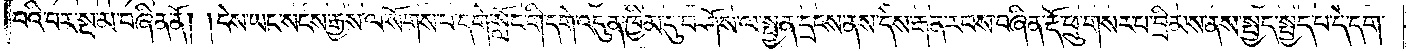བའི་བར་སྔ་མ་བཞིན་ནོ། །དེས་ཡང་སངས་རྒྱས་ལ་སོགས་པ་དགེ་སློང་གི་དགེ་འདུན་ཁྱིམ་དུ་བཤོས་ལ་སྤྱན་དྲངས་ནས་དེས་རྒན་རབས་བཞིན་རྡོ་ཕྲུ་གསར་པ་བྲིམས་ནས་སྤྱད་སྤྱད་པ་དེ་དག་
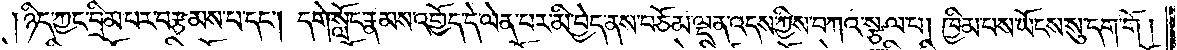ཉིད་ཀྱང་བྲིམ་པར་བརྩམས་པ་དང༌། དགེ་སློང་རྣམས་འགྱོད་དེ་ལན་པར་མི་བྱེད་ནས་བཅོམ་ལྡན་འདས་ཀྱིས་བཀའ་སྩལ་པ། ཁྱིམ་པས་ཡོངས་སུ་དག་གོ །
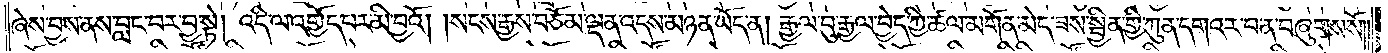ཞེས་བྱས་ནས་བླང་བར་བྱ་སྟེ། འདི་ལ་འགྱོད་པར་མི་བྱའོ། །སངས་རྒྱས་བཅོམ་ལྡན་འདས་མཉན་ཡོད་ན། རྒྱལ་བུ་རྒྱལ་བྱེད་ཀྱི་ཚལ་མགོན་མེད་ཟས་སྦྱིན་གྱི་ཀུན་དགའ་ར་བ་ན་བཞུགས་སོ༎
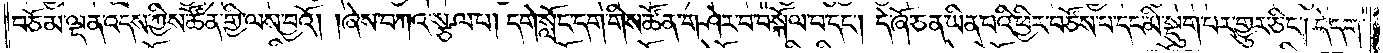བཅོམ་ལྡན་འདས་ཀྱིས་ཚོན་གྱི་ལས་བྱའོ། །ཞེས་བཀའ་སྩལ་པ། དགེ་སློང་དག་གིས་ཚོན་གཤེར་བ་བསྐོལ་བ་དང༌། དེ་ཞོ་ཅན་ཡིན་པའི་ཕྱིར་བཙོས་པ་དང་མི་སྡུག་པར་གྱུར་ཅིང༌། དེ་དག་
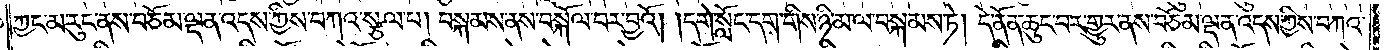ཀྱང་མ་རུང་ནས་བཅོམ་ལྡན་འདས་ཀྱིས་བཀའ་སྩལ་པ། བསྐམས་ནས་བསྐོལ་བར་བྱའོ། །དགེ་སློང་དག་གིས་ཉི་མ་ལ་བསྐམས་ཏེ། དེ་ནོན་ཆུང་བར་གྱུར་ནས་བཅོམ་ལྡན་འདས་ཀྱིས་བཀའ་
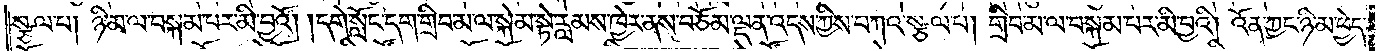སྩལ་པ། ཉི་མ་ལ་བསྐམ་པར་མི་བྱའོ། །དགེ་སློང་དག་གྲིབ་མ་ལ་སྐེམ་སྟེ་རླམས་ཁྱེར་ནས་བཅོམ་ལྡན་འདས་ཀྱིས་བཀའ་སྩལ་པ། གྲིབ་མ་ལ་བསྐམ་པར་མི་བྱའི། འོན་ཀྱང་ཉི་མ་ཕྱེད་
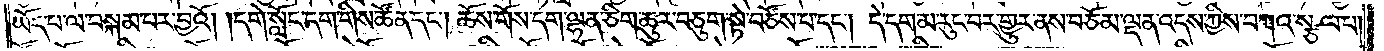ཡོད་པ་ལ་བསྐམ་པར་བྱའོ། །དགེ་སློང་དག་གིས་ཚོན་དང༌། ཆོས་གོས་དག་ལྷན་ཅིག་ཆུར་བཅུག་སྟེ་བཙོས་པ་དང༌། དེ་དག་མ་རུང་བར་གྱུར་ནས་བཅོམ་ལྡན་འདས་ཀྱིས་བཀའ་སྩལ་པ།
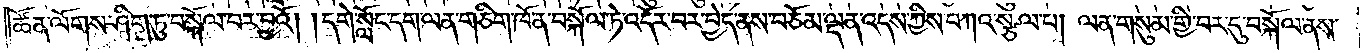ཚོན་ལོགས་ཤིག་ཏུ་བསྐོལ་བར་བྱའོ། །དགེ་སློང་དག་ལན་གཅིག་ཁོ་ན་བསྐོལ་ཏེ་འདོར་བར་བྱེད་ནས་བཅོམ་ལྡན་འདས་ཀྱིས་བཀའ་སྩལ་པ། ལན་གསུམ་གྱི་བར་དུ་བསྐོལ་ནས་
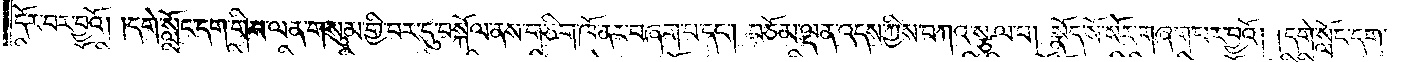དོར་བར་བྱའོ། །དགེ་སློང་དག་གིས་ལན་གསུམ་གྱི་བར་དུ་བསྐོལ་ནས་གཅིག་ཁོ་ནར་བཞག་པ་དང༌། བཅོམ་ལྡན་འདས་ཀྱིས་བཀའ་སྩལ་པ། སྣོད་སོ་སོར་གཞག་པར་བྱའོ། །དགེ་སློང་དག་
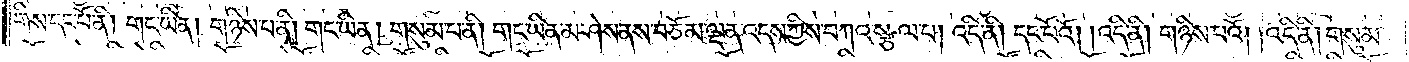གིས་དང་པོ་ནི། གང་ཡིན། གཉིས་པ་ནི། གང་ཡིན། གསུམ་པ་ནི། གང་ཡིན་པ་མ་ཤེས་ནས་བཅོམ་ལྡན་འདས་ཀྱིས་བཀའ་སྩལ་པ། འདི་ནི། དང་པོའོ། འདི་ནི། གཉིས་པའོ། །འདི་ནི། གསུམ་
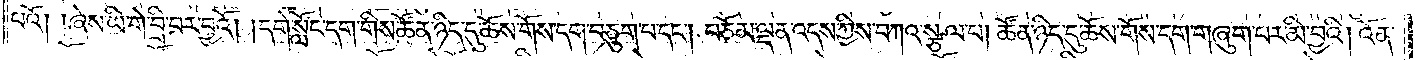པའོ། །ཞེས་ཡི་གེ་བྲི་བར་བྱའོ། །དགེ་སློང་དག་གིས་ཚོན་ཉིད་དུ་ཆོས་གོས་དག་བཅུག་པ་དང༌། བཅོམ་ལྡན་འདས་ཀྱིས་བཀའ་སྩལ་པ། ཚོན་ཉིད་དུ་ཆོས་གོས་དག་གཞུག་པར་མི་བྱའི། འོན་
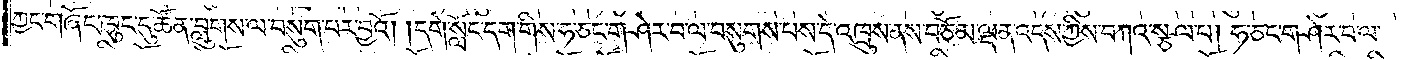ཀྱང་གཞོང་ཁུང་དུ་ཚོན་བླུགས་ལ་བསུག་པར་བྱའོ། །དགེ་སློང་དག་གིས་ཧ་ཅང་གཤེར་བ་ལ་བསུགས་པས་དེ་འཁྲུས་ནས་བཅོམ་ལྡན་འདས་ཀྱིས་བཀའ་སྩལ་པ། ཧ་ཅང་གཤེར་བ་ལ་
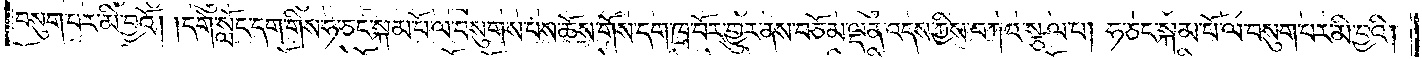བསུག་པར་མི་བྱའོ། །དགེ་སློང་དག་གིས་ཧ་ཅང་སྐམ་པོ་ལ་བསུགས་པས་ཆོས་གོས་དག་ཁྲ་བོར་གྱུར་ནས་བཅོམ་ལྡན་འདས་ཀྱིས་བཀའ་སྩལ་པ། ཧ་ཅང་སྐམ་པོ་ལ་བསུག་པར་མི་བྱའི།
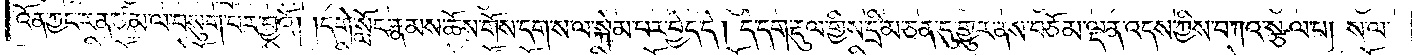འོན་ཀྱང་རན་ཙམ་ལ་བསུག་པར་བྱའོ། །དགེ་སློང་རྣམས་ཆོས་གོས་དག་ས་ལ་སྐེམ་པར་བྱེད་དེ། །དེ་དག་རྡུལ་གྱིས་དྲི་མ་ཅན་དུ་གྱུར་ནས་བཅོམ་ལྡན་འདས་ཀྱིས་བཀའ་སྩལ་པ། ས་ལ་
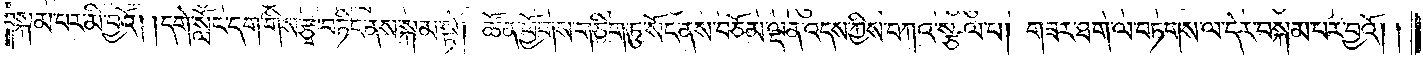སྐམ་པར་མི་བྱའོ། །དགེ་སློང་དག་གིས་རྩྭ་བཏིང་ནས་སྐམ་སྟེ། ཚོན་ཕྱོགས་གཅིག་ཏུ་སོང་ནས་བཅོམ་ལྡན་འདས་ཀྱིས་བཀའ་སྩལ་པ། གཟར་ཐག་ལ་བཏགས་ལ་དེར་བསྐམ་པར་བྱའོ། །
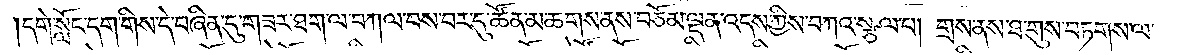དགེ་སློང་དག་གིས་དེ་བཞིན་དུ་གཟར་ཐག་ལ་བཀལ་བས་བར་དུ་ཚོན་མ་ཆགས་ནས་བཅོམ་ལྡན་འདས་ཀྱིས་བཀའ་སྩལ་པ། གྲས་ནས་ཐ་གུས་བཏགས་ལ་
